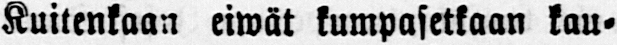Kuitenkaan eiwät kumpasetkaan kau-
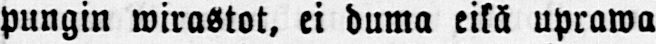pungin wirastot, ei duma eikä uprawa
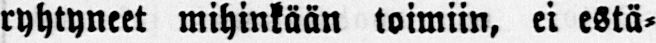ryhtyneet mihinkään toimiin, ei estä-
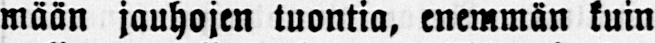mään jauhojen tuontia, enemmän kuin
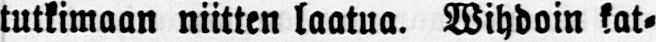tutkimaan niitten laatua. Wihdoin kat-
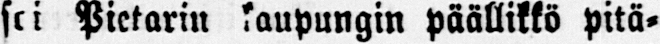soi Pietarin kaupungin päällikkö pitä-
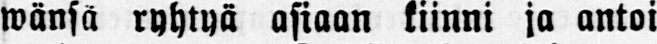wänsä ryhtyä asiaan kiinni ja antoi
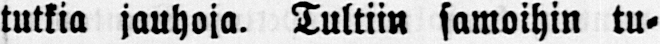tutkia jauhoja. Tultiin samoihin tu-
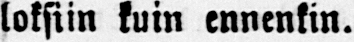loksiin kuin ennenkin.
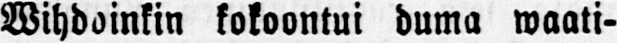Wihdoinkin kokoontui duma waati-
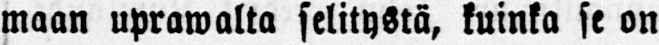maan uprawalta selitystä, kuinka se on
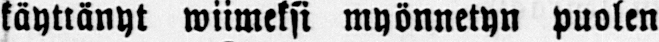käyttänyt wiimeksi myönnetyn puolen
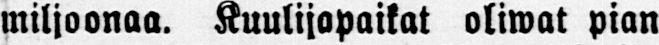miljoonaa. Kuulijapaikat oliwat pian
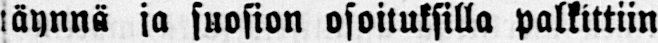täynnä ja suosion osoituksilla palkittiin
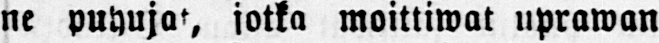ne puhujat, jotka moittiwat uprawan
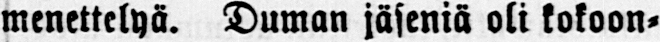menettelyä. Duman jäseniä oli kokoon-
